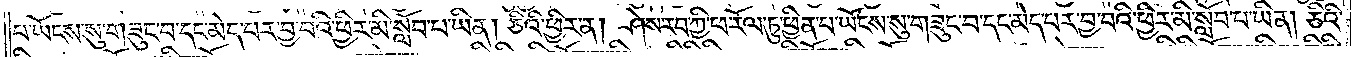པ་ཡོངས་སུ་གཟུང་བ་དང་མེད་པར་བྱ་བའི་ཕྱིར་མི་སློབ་པ་ཡིན། ཅིའི་ཕྱིར་ན། ཤེས་རབ་ཀྱི་ཕ་རོལ་ཏུ་ཕྱིན་པ་ཡོངས་སུ་གཟུང་བ་དང་མེད་པར་བྱ་བའི་ཕྱིར་མི་སློབ་པ་ཡིན། ཅིའི་
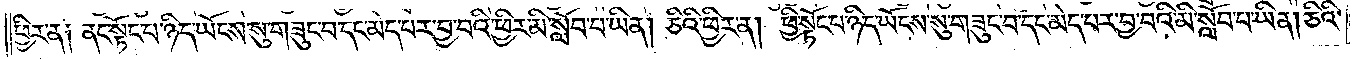ཕྱིར་ན། ནང་སྟོང་པ་ཉིད་ཡོངས་སུ་གཟུང་བ་དང་མེད་པར་བྱ་བའི་ཕྱིར་མི་སློབ་པ་ཡིན། ཅིའི་ཕྱིར་ན། ཕྱི་སྟོང་པ་ཉིད་ཡོངས་སུ་གཟུང་བ་དང་མེད་པར་བྱ་བའི་ཕྱིར་མི་སློབ་པ་ཡིན། ཅིའི་
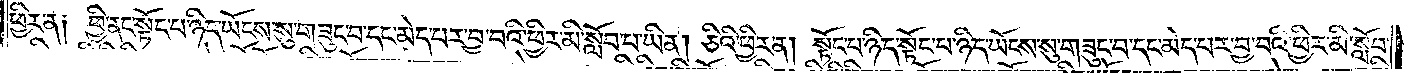ཕྱིར་ན༑ ཕྱི་ནང་སྟོང་པ་ཉིད་ཡོངས་སུ་གཟུང་བ་དང་མེད་པར་བྱ་བའི་ཕྱིར་མི་སློབ་པ་ཡིན། ཅིའི་ཕྱིར་ན། སྟོང་པ་ཉིད་སྟོང་པ་ཉིད་ཡོངས་སུ་གཟུང་བ་དང་མེད་པར་བྱ་བའི་ཕྱིར་མི་སློབ་
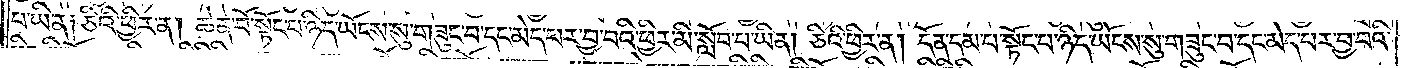པ་ཡིན༑ ཅིའི་ཕྱིར་ན། ཆེན་པོ་སྟོང་པ་ཉིད་ཡོངས་སུ་གཟུང་བ་དང་མེད་པར་བྱ་བའི་ཕྱིར་མི་སློབ་པ་ཡིན། ཅིའི་ཕྱིར་ན། དོན་དམ་པ་སྟོང་པ་ཉིད་ཡོངས་སུ་གཟུང་བ་དང་མེད་པར་བྱ་བའི་
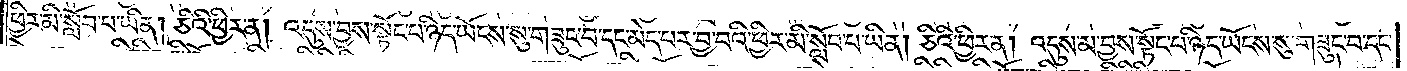ཕྱིར་མི་སློབ་པ་ཡིན། ཅིའི་ཕྱིར་ན། འདུས་བྱས་སྟོང་པ་ཉིད་ཡོངས་སུ་གཟུང་བ་དང་མེད་པར་བྱ་བའི་ཕྱིར་མི་སློབ་པ་ཡིན། ཅིའི་ཕྱིར་ན། འདུས་མ་བྱས་སྟོང་པ་ཉིད་ཡོངས་སུ་གཟུང་བ་དང་
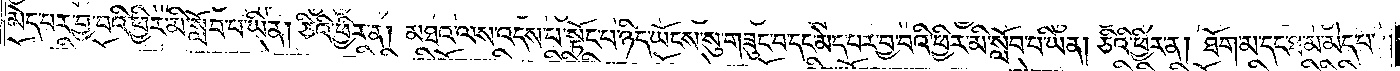མེད་པར་བྱ་བའི་ཕྱིར་མི་སློབ་པ་ཡིན། ཅིའི་ཕྱིར་ན། མཐའ་ལས་འདས་པ་སྟོང་པ་ཉིད་ཡོངས་སུ་གཟུང་བ་དང་མེད་པར་བྱ་བའི་ཕྱིར་མི་སློབ་པ་ཡིན། ཅིའི་ཕྱིར་ན། ཐོག་མ་དང་ཐ་མ་མེད་པ་
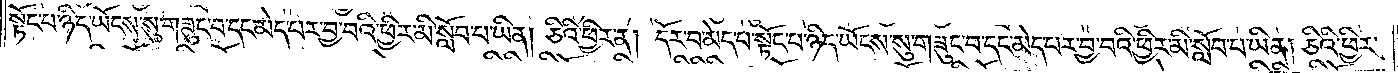སྟོང་པ་ཉིད་ཡོངས་སུ་གཟུང་བ་དང་མེད་པར་བྱ་བའི་ཕྱིར་མི་སློབ་པ་ཡིན། ཅིའི་ཕྱིར་ན། དོར་བ་མེད་པ་སྟོང་པ་ཉིད་ཡོངས་སུ་གཟུང་བ་དང་མེད་པར་བྱ་བའི་ཕྱིར་མི་སློབ་པ་ཡིན། ཅིའི་ཕྱིར་
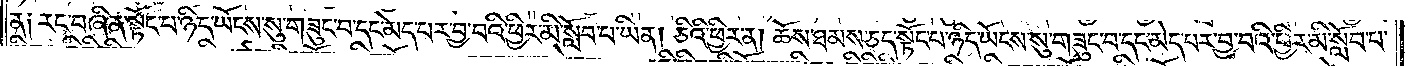ན༑ རང་བཞིན་སྟོང་པ་ཉིད་ཡོངས་སུ་གཟུང་བ་དང་མེད་པར་བྱ་བའི་ཕྱིར་མི་སློབ་པ་ཡིན། ཅིའི་ཕྱིར་ན། ཆོས་ཐམས་ཅད་སྟོང་པ་ཉིད་ཡོངས་སུ་གཟུང་བ་དང་མེད་པར་བྱ་བའི་ཕྱིར་མི་སློབ་པ་
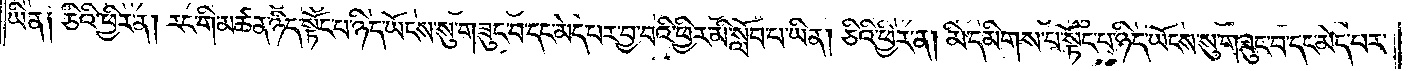ཡིན༑ ཅིའི་ཕྱིར་ན། རང་གི་མཚན་ཉིད་སྟོང་པ་ཉིད་ཡོངས་སུ་གཟུང་བ་དང་མེད་པར་བྱ་བའི་ཕྱིར་མི་སློབ་པ་ཡིན། ཅིའི་ཕྱིར་ན། མི་དམིགས་པ་སྟོང་པ་ཉིད་ཡོངས་སུ་གཟུང་བ་དང་མེད་པར་
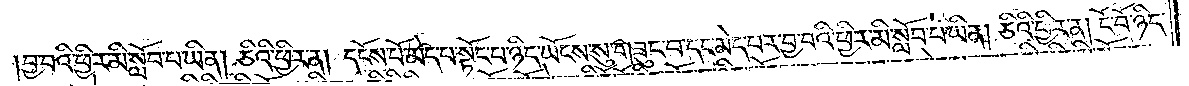བྱ་བའི་ཕྱིར་མི་སློབ་པ་ཡིན། ཅིའི་ཕྱིར་ན། དངོས་པོ་མེད་པ་སྟོང་པ་ཉིད་ཡོངས་སུ་གཟུང་བ་དང་མེད་པར་བྱ་བའི་ཕྱིར་མི་སློབ་པ་ཡིན། ཅིའི་ཕྱིར་ན། ངོ་བོ་ཉིད་
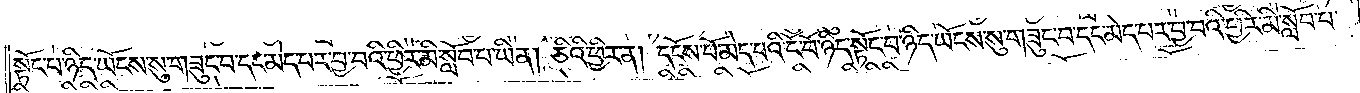སྟོང་པ་ཉིད་ཡོངས་སུ་གཟུང་བ་དང་མེད་པར་བྱ་བའི་ཕྱིར་མི་སློབ་པ་ཡིན། ཅིའི་ཕྱིར་ན། དངོས་པོ་མེད་པའི་ངོ་བོ་ཉིད་སྟོང་པ་ཉིད་ཡོངས་སུ་གཟུང་བ་དང་མེད་པར་བྱ་བའི་ཕྱིར་མི་སློབ་པ་
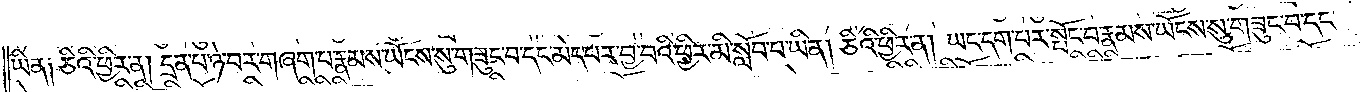ཡིན༑ ཅིའི་ཕྱིར་ན། དྲན་པ་ཉེ་བར་བཞག་པ་རྣམས་ཡོངས་སུ་གཟུང་བ་དང་མེད་པར་བྱ་བའི་ཕྱིར་མི་སློབ་པ་ཡིན། ཅིའི་ཕྱིར་ན། ཡང་དག་པར་སྤོང་བ་རྣམས་ཡོངས་སུ་གཟུང་བ་དང་
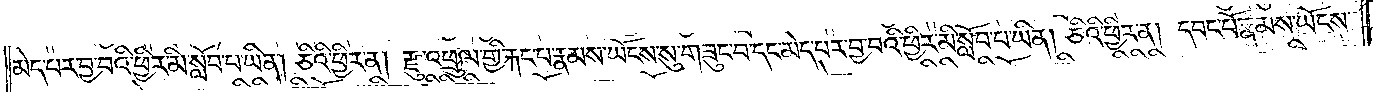མེད་པར་བྱ་བའི་ཕྱིར་མི་སློབ་པ་ཡིན། ཅིའི་ཕྱིར་ན། རྫུ་འཕྲུལ་གྱི་རྐང་པ་རྣམས་ཡོངས་སུ་གཟུང་བ་དང་མེད་པར་བྱ་བའི་ཕྱིར་མི་སློབ་པ་ཡིན། ཅིའི་ཕྱིར་ན། དབང་པོ་རྣམས་ཡོངས་
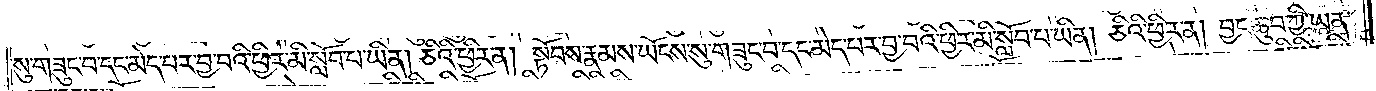སུ་གཟུང་བ་དང་མེད་པར་བྱ་བའི་ཕྱིར་མི་སློབ་པ་ཡིན། ཅིའི་ཕྱིར་ན། སྟོབས་རྣམས་ཡོངས་སུ་གཟུང་བ་དང་མེད་པར་བྱ་བའི་ཕྱིར་མི་སློབ་པ་ཡིན། ཅིའི་ཕྱིར་ན། བྱང་ཆུབ་ཀྱི་ཡན་
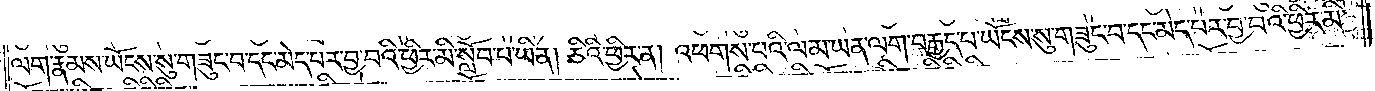ལག་རྣམས་ཡོངས་སུ་གཟུང་བ་དང་མེད་པར་བྱ་བའི་ཕྱིར་མི་སློབ་པ་ཡིན། ཅིའི་ཕྱིར་ན། འཕགས་པའི་ལམ་ཡན་ལག་བརྒྱད་པ་ཡོངས་སུ་གཟུང་བ་དང་མེད་པར་བྱ་བའི་ཕྱིར་མི་
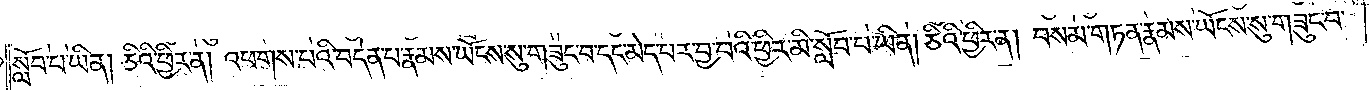སློབ་པ་ཡིན། ཅིའི་ཕྱིར་ན། འཕགས་པའི་བདེན་པ་རྣམས་ཡོངས་སུ་གཟུང་བ་དང་མེད་པར་བྱ་བའི་ཕྱིར་མི་སློབ་པ་ཡིན། ཅིའི་ཕྱིར་ན། བསམ་གཏན་རྣམས་ཡོངས་སུ་གཟུང་བ་
